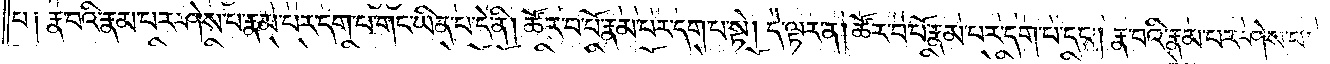པ༑ རྣ་བའི་རྣམ་པར་ཤེས་པ་རྣམ་པར་དག་པ་གང་ཡིན་པ་དེ་ནི། ཚོར་བ་པོ་རྣམ་པར་དག་པ་སྟེ། དེ་ལྟར་ན། ཚོར་བ་པོ་རྣམ་པར་དག་པ་དང༌། རྣ་བའི་རྣམ་པར་ཤེས་པ་
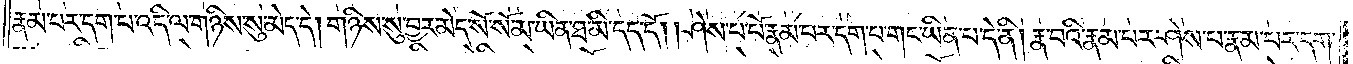རྣམ་པར་དག་པ་འདི་ལ་གཉིས་སུ་མེད་དེ། གཉིས་སུ་བྱར་མེད་སོ་སོ་མ་ཡིན་ཐ་མི་དད་དོ། །ཤེས་པ་པོ་རྣམ་པར་དག་པ་གང་ཡིན་པ་དེ་ནི། རྣ་བའི་རྣམ་པར་ཤེས་པ་རྣམ་པར་དག་
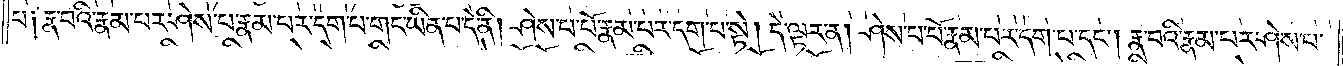པ༑ རྣ་བའི་རྣམ་པར་ཤེས་པ་རྣམ་པར་དག་པ་གང་ཡིན་པ་དེ་ནི། ཤེས་པ་པོ་རྣམ་པར་དག་པ་སྟེ། དེ་ལྟར་ན། ཤེས་པ་པོ་རྣམ་པར་དག་པ་དང༌། རྣ་བའི་རྣམ་པར་ཤེས་པ་
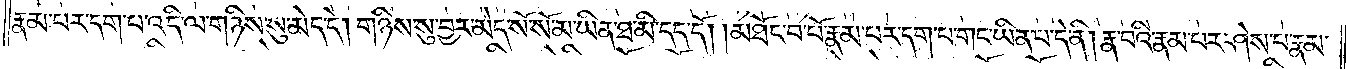རྣམ་པར་དག་པ་འདི་ལ་གཉིས་སུ་མེད་དེ། གཉིས་སུ་བྱར་མེད་སོ་སོ་མ་ཡིན་ཐ་མི་དད་དོ། །མཐོང་བ་པོ་རྣམ་པར་དག་པ་གང་ཡིན་པ་དེ་ནི། རྣ་བའི་རྣམ་པར་ཤེས་པ་རྣམ་
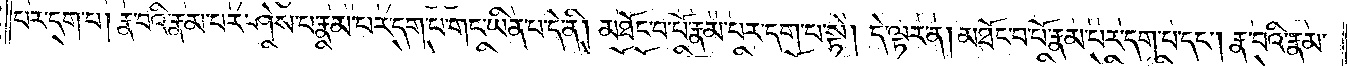པར་དག་པ། རྣ་བའི་རྣམ་པར་ཤེས་པ་རྣམ་པར་དག་པ་གང་ཡིན་པ་དེ་ནི། མཐོང་བ་པོ་རྣམ་པར་དག་པ་སྟེ། དེ་ལྟར་ན། མཐོང་བ་པོ་རྣམ་པར་དག་པ་དང༌། རྣ་བའི་རྣམ་
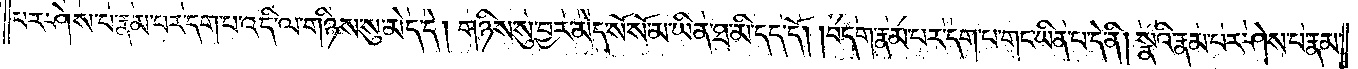པར་ཤེས་པ་རྣམ་པར་དག་པ་འདི་ལ་གཉིས་སུ་མེད་དེ། གཉིས་སུ་བྱར་མེད་སོ་སོ་མ་ཡིན་ཐ་མི་དད་དོ། །བདག་རྣམ་པར་དག་པ་གང་ཡིན་པ་དེ་ནི། སྣའི་རྣམ་པར་ཤེས་པ་རྣམ་
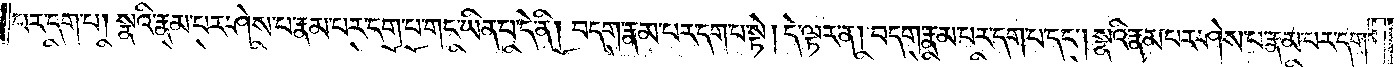པར་དག་པ། སྣའི་རྣམ་པར་ཤེས་པ་རྣམ་པར་དག་པ་གང་ཡིན་པ་དེ་ནི། བདག་རྣམ་པར་དག་པ་སྟེ། དེ་ལྟར་ན། བདག་རྣམ་པར་དག་པ་དང༌། སྣའི་རྣམ་པར་ཤེས་པ་རྣམ་པར་དག་
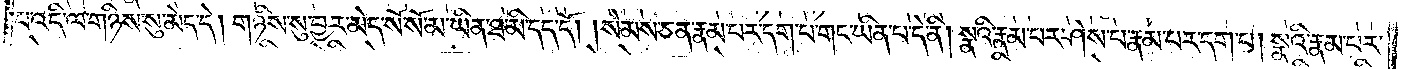པ་འདི་ལ་གཉིས་སུ་མེད་དེ། གཉིས་སུ་བྱར་མེད་སོ་སོ་མ་ཡིན་ཐ་མི་དད་དོ། །སེམས་ཅན་རྣམ་པར་དག་པ་གང་ཡིན་པ་དེ་ནི། སྣའི་རྣམ་པར་ཤེས་པ་རྣམ་པར་དག་པ། སྣའི་རྣམ་པར་
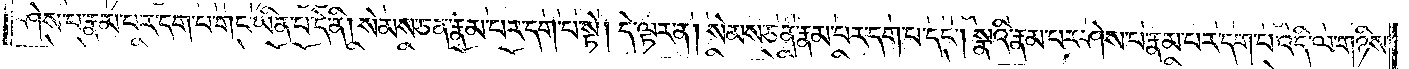ཤེས་པ་རྣམ་པར་དག་པ་གང་ཡིན་པ་དེ་ནི། སེམས་ཅན་རྣམ་པར་དག་པ་སྟེ། དེ་ལྟར་ན། སེམས་ཅན་རྣམ་པར་དག་པ་དང༌། སྣའི་རྣམ་པར་ཤེས་པ་རྣམ་པར་དག་པ་འདི་ལ་གཉིས་
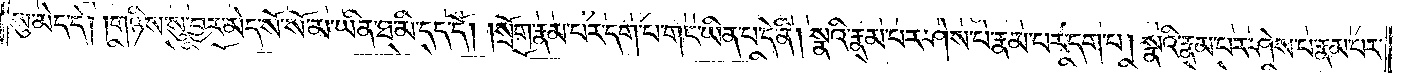སུ་མེད་དེ། །གཉིས་སུ་བྱར་མེད་སོ་སོ་མ་ཡིན་ཐ་མི་དད་དོ། །སྲོག་རྣམ་པར་དག་པ་གང་ཡིན་པ་དེ་ནི། སྣའི་རྣམ་པར་ཤེས་པ་རྣམ་པར་དག་པ། སྣའི་རྣམ་པར་ཤེས་པ་རྣམ་པར་
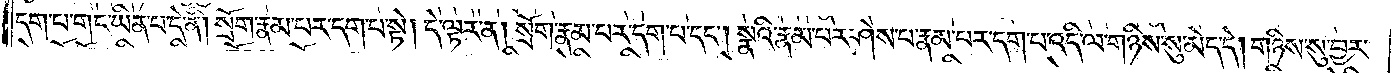དག་པ་གང་ཡིན་པ་དེ་ནི། སྲོག་རྣམ་པར་དག་པ་སྟེ། དེ་ལྟར་ན། སྲོག་རྣམ་པར་དག་པ་དང༌། སྣའི་རྣམ་པར་ཤེས་པ་རྣམ་པར་དག་པ་འདི་ལ་གཉིས་སུ་མེད་དེ། གཉིས་སུ་བྱར་
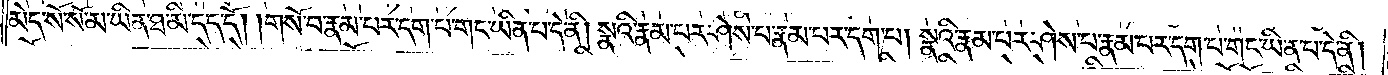མེད་སོ་སོ་མ་ཡིན་ཐ་མི་དད་དོ། །གསོ་བ་རྣམ་པར་དག་པ་གང་ཡིན་པ་དེ་ནི། སྣའི་རྣམ་པར་ཤེས་པ་རྣམ་པར་དག་པ། སྣའི་རྣམ་པར་ཤེས་པ་རྣམ་པར་དག་པ་གང་ཡིན་པ་དེ་ནི།
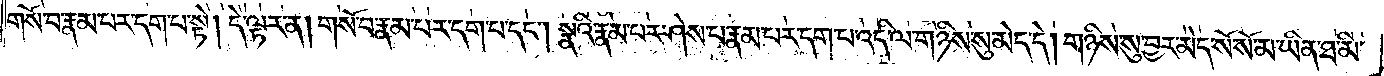གསོ་བ་རྣམ་པར་དག་པ་སྟེ། དེ་ལྟར་ན། གསོ་བ་རྣམ་པར་དག་པ་དང༌། སྣའི་རྣམ་པར་ཤེས་པ་རྣམ་པར་དག་པ་འདི་ལ་གཉིས་སུ་མེད་དེ། གཉིས་སུ་བྱར་མེད་སོ་སོ་མ་ཡིན་ཐ་མི་
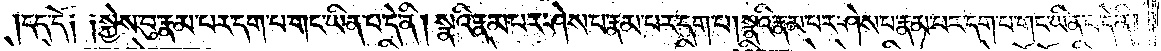དད་དོ༑ ༑སྐྱེས་བུ་རྣམ་པར་དག་པ་གང་ཡིན་པ་དེ་ནི། སྣའི་རྣམ་པར་ཤེས་པ་རྣམ་པར་དག་པ། སྣའི་རྣམ་པར་ཤེས་པ་རྣམ་པར་དག་པ་གང་ཡིན་པ་དེ་ནི།
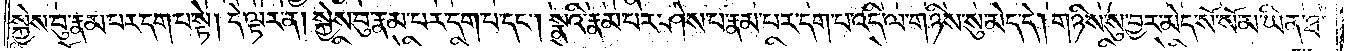སྐྱེས་བུ་རྣམ་པར་དག་པ་སྟེ། དེ་ལྟར་ན། སྐྱེས་བུ་རྣམ་པར་དག་པ་དང༌། སྣའི་རྣམ་པར་ཤེས་པ་རྣམ་པར་དག་པ་འདི་ལ་གཉིས་སུ་མེད་དེ། གཉིས་སུ་བྱར་མེད་སོ་སོ་མ་ཡིན་ཐ་
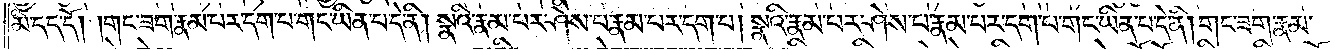མི་དད་དོ། །གང་ཟག་རྣམ་པར་དག་པ་གང་ཡིན་པ་དེ་ནི། སྣའི་རྣམ་པར་ཤེས་པ་རྣམ་པར་དག་པ། སྣའི་རྣམ་པར་ཤེས་པ་རྣམ་པར་དག་པ་གང་ཡིན་པ་དེ་ནི། གང་ཟག་རྣམ་
